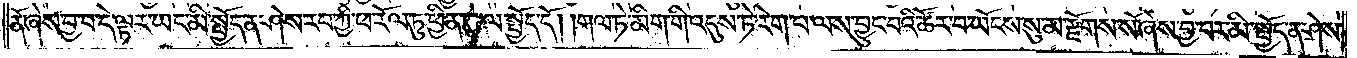ནོ་ཞེས་བྱ་བ་དེ་ལྟར་ཡང་མི་སྤྱོད་ན་ཤེས་རབ་ཀྱི་ཕ་རོལ་ཏུ་ཕྱིན་པ་ལ་སྤྱོད་དོ། །གལ་ཏེ་མིག་གི་འདུས་ཏེ་རེག་པ་ལས་བྱུང་བའི་ཚོར་བ་ཡོངས་སུ་མ་རྫོགས་སོ་ཞེས་བྱ་བར་མི་སྤྱོད་ན་ཤེས་
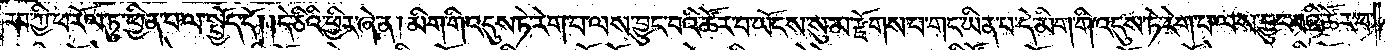རབ་ཀྱི་ཕ་རོལ་ཏུ་ཕྱིན་པ་ལ་སྤྱོད་དོ། །དེ་ཅིའི་ཕྱིར་ཞེ་ན། མིག་གི་འདུས་ཏེ་རེག་པ་ལས་བྱུང་བའི་ཚོར་བ་ཡོངས་སུ་མ་རྫོགས་པ་གང་ཡིན་པ་དེ་མིག་གི་འདུས་ཏེ་རེག་པ་ལས་བྱུང་བའི་ཚོར་བ་
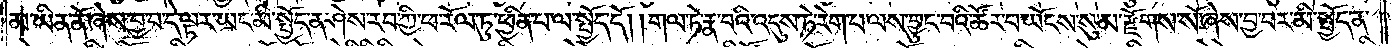མ་ཡིན་ནོ་ཞེས་བྱ་བ་དེ་ལྟར་ཡང་མི་སྤྱོད་ན་ཤེས་རབ་ཀྱི་ཕ་རོལ་ཏུ་ཕྱིན་པ་ལ་སྤྱོད་དོ། །གལ་ཏེ་རྣ་བའི་འདུས་ཏེ་རེག་པ་ལས་བྱུང་བའི་ཚོར་བ་ཡོངས་སུ་མ་རྫོགས་སོ་ཞེས་བྱ་བར་མི་སྤྱོད་ན་
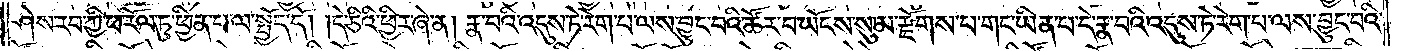ཤེས་རབ་ཀྱི་ཕ་རོལ་ཏུ་ཕྱིན་པ་ལ་སྤྱོད་དོ། །དེ་ཅིའི་ཕྱིར་ཞེ་ན། རྣ་བའི་འདུས་ཏེ་རེག་པ་ལས་བྱུང་བའི་ཚོར་བ་ཡོངས་སུ་མ་རྫོགས་པ་གང་ཡིན་པ་དེ་རྣ་བའི་འདུས་ཏེ་རེག་པ་ལས་བྱུང་བའི་
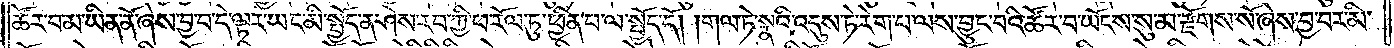ཚོར་བ་མ་ཡིན་ནོ་ཞེས་བྱ་བ་དེ་ལྟར་ཡང་མི་སྤྱོད་ན་ཤེས་རབ་ཀྱི་ཕ་རོལ་ཏུ་ཕྱིན་པ་ལ་སྤྱོད་དོ། །གལ་ཏེ་སྣའི་འདུས་ཏེ་རེག་པ་ལས་བྱུང་བའི་ཚོར་བ་ཡོངས་སུ་མ་རྫོགས་སོ་ཞེས་བྱ་བར་མི་
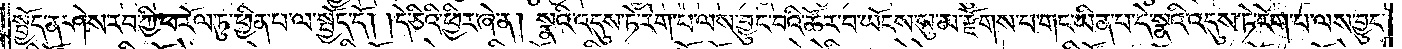སྤྱོད་ན་ཤེས་རབ་ཀྱི་ཕ་རོལ་ཏུ་ཕྱིན་པ་ལ་སྤྱོད་དོ། །དེ་ཅིའི་ཕྱིར་ཞེ་ན། སྣའི་འདུས་ཏེ་རེག་པ་ལས་བྱུང་བའི་ཚོར་བ་ཡོངས་སུ་མ་རྫོགས་པ་གང་ཡིན་པ་དེ་སྣའི་འདུས་ཏེ་རེག་པ་ལས་བྱུང་
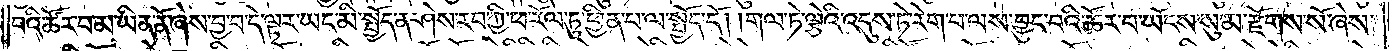བའི་ཚོར་བ་མ་ཡིན་ནོ་ཞེས་བྱ་བ་དེ་ལྟར་ཡང་མི་སྤྱོད་ན་ཤེས་རབ་ཀྱི་ཕ་རོལ་ཏུ་ཕྱིན་པ་ལ་སྤྱོད་དོ། །གལ་ཏེ་ལྕེའི་འདུས་ཏེ་རེག་པ་ལས་བྱུང་བའི་ཚོར་བ་ཡོངས་སུ་མ་རྫོགས་སོ་ཞེས་
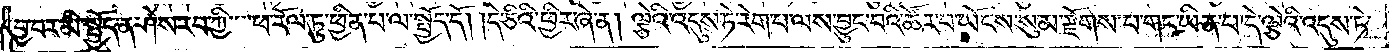བྱ་བར་མི་སྤྱོད་ན་ཤེས་རབ་ཀྱི་ཕ་རོལ་ཏུ་ཕྱིན་པ་ལ་སྤྱོད་དོ། །དེ་ཅིའི་ཕྱིར་ཞེ་ན། ལྕེའི་འདུས་ཏེ་རེག་པ་ལས་བྱུང་བའི་ཚོར་བ་ཡོངས་སུ་མ་རྫོགས་པ་གང་ཡིན་པ་དེ་ལྕེའི་འདུས་ཏེ་
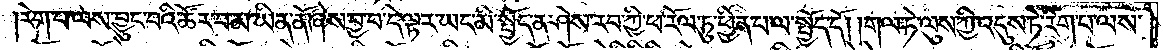རེག་པ་ལས་བྱུང་བའི་ཚོར་བ་མ་ཡིན་ནོ་ཞེས་བྱ་བ་དེ་ལྟར་ཡང་མི་སྤྱོད་ན་ཤེས་རབ་ཀྱི་ཕ་རོལ་ཏུ་ཕྱིན་པ་ལ་སྤྱོད་དོ། །གལ་ཏེ་ལུས་ཀྱི་འདུས་ཏེ་རེག་པ་ལས་
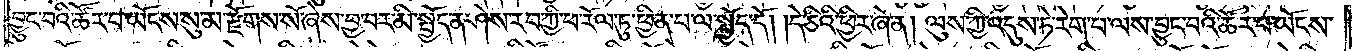བྱུང་བའི་ཚོར་བ་ཡོངས་སུ་མ་རྫོགས་སོ་ཞེས་བྱ་བར་མི་སྤྱོད་ན་ཤེས་རབ་ཀྱི་ཕ་རོལ་ཏུ་ཕྱིན་པ་ལ་སྤྱོད་དོ། །དེ་ཅིའི་ཕྱིར་ཞེ་ན། ལུས་ཀྱི་འདུས་ཏེ་རེག་པ་ལས་བྱུང་བའི་ཚོར་བ་ཡོངས་
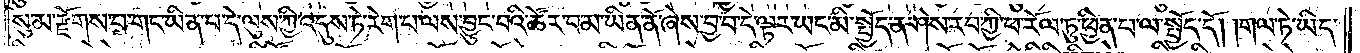སུ་མ་རྫོགས་པ་གང་ཡིན་པ་དེ་ལུས་ཀྱི་འདུས་ཏེ་རེག་པ་ལས་བྱུང་བའི་ཚོར་བ་མ་ཡིན་ནོ་ཞེས་བྱ་བ་དེ་ལྟར་ཡང་མི་སྤྱོད་ན་ཤེས་རབ་ཀྱི་ཕ་རོལ་ཏུ་ཕྱིན་པ་ལ་སྤྱོད་དོ། །གལ་ཏེ་ཡིད་
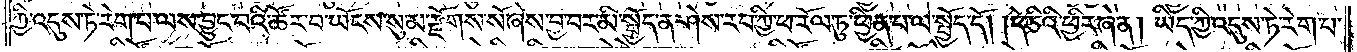ཀྱི་འདུས་ཏེ་རེག་པ་ལས་བྱུང་བའི་ཚོར་བ་ཡོངས་སུ་མ་རྫོགས་སོ་ཞེས་བྱ་བར་མི་སྤྱོད་ན་ཤེས་རབ་ཀྱི་ཕ་རོལ་ཏུ་ཕྱིན་པ་ལ་སྤྱོད་དོ། །དེ་ཅིའི་ཕྱིར་ཞེ་ན། ཡིད་ཀྱི་འདུས་ཏེ་རེག་པ་
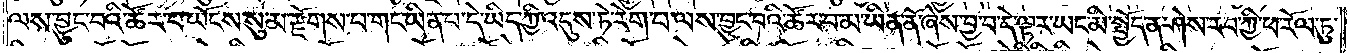ལས་བྱུང་བའི་ཚོར་བ་ཡོངས་སུ་མ་རྫོགས་པ་གང་ཡིན་པ་དེ་ཡིད་ཀྱི་འདུས་ཏེ་རེག་པ་ལས་བྱུང་བའི་ཚོར་བ་མ་ཡིན་ནོ་ཞེས་བྱ་བ་དེ་ལྟར་ཡང་མི་སྤྱོད་ན་ཤེས་རབ་ཀྱི་ཕ་རོལ་ཏུ་
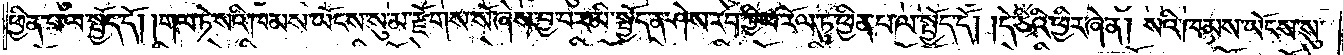ཕྱིན་པ་ལ་སྤྱོད་དོ། །གལ་ཏེ་སའི་ཁམས་ཡོངས་སུ་མ་རྫོགས་སོ་ཞེས་བྱ་བར་མི་སྤྱོད་ན་ཤེས་རབ་ཀྱི་ཕ་རོལ་ཏུ་ཕྱིན་པ་ལ་སྤྱོད་དོ། །དེ་ཅིའི་ཕྱིར་ཞེ་ན། སའི་ཁམས་ཡོངས་སུ་
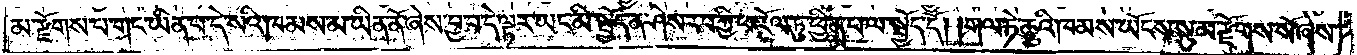མ་རྫོགས་པ་གང་ཡིན་པ་དེ་སའི་ཁམས་མ་ཡིན་ནོ་ཞེས་བྱ་བ་དེ་ལྟར་ཡང་མི་སྤྱོད་ན་ཤེས་རབ་ཀྱི་ཕ་རོལ་ཏུ་ཕྱིན་པ་ལ་སྤྱོད་དོ། །གལ་ཏེ་ཆུའི་ཁམས་ཡོངས་སུ་མ་རྫོགས་སོ་ཞེས་
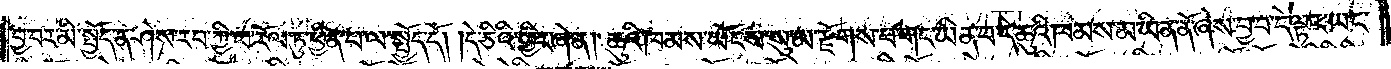བྱ་བར་མི་སྤྱོད་ན་ཤེས་རབ་ཀྱི་ཕ་རོལ་ཏུ་ཕྱིན་པ་ལ་སྤྱོད་དོ། །དེ་ཅིའི་ཕྱིར་ཞེ་ན། ཆུའི་ཁམས་ཡོངས་སུ་མ་རྫོགས་པ་གང་ཡིན་པ་དེ་ཆུའི་ཁམས་མ་ཡིན་ནོ་ཞེས་བྱ་བ་དེ་ལྟར་ཡང་
